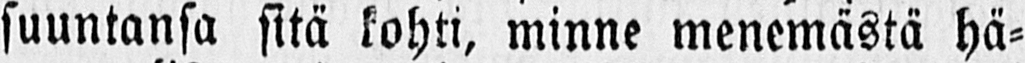suuntansa sitä kohti, minne menemästä hä-
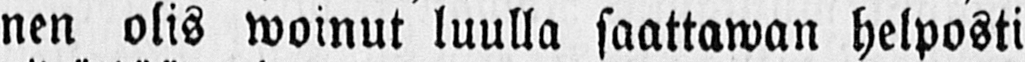nen olis woinut luulla saattawan helposti
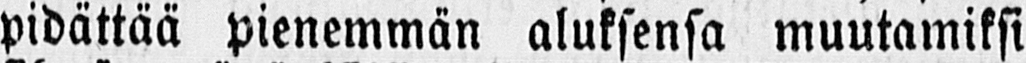pidättää pienemmän aluksensa muutamiksi
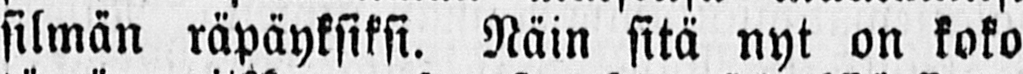silmän räpäyksiksi. Näin sitä nyt on koko
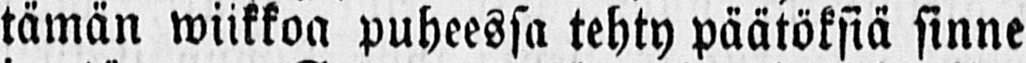tämän wiikkoa puheessa tehty päätöksiä sinne
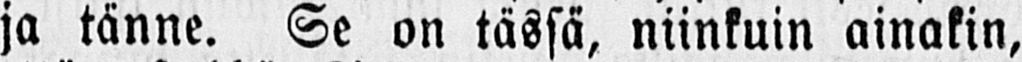ja tänne. Se on tässä, niinkuin ainakin,
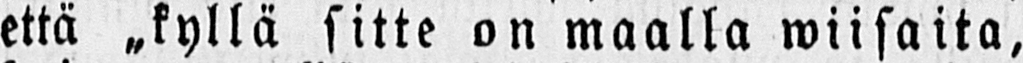että „kyllä sitte on maalla wiisaita,
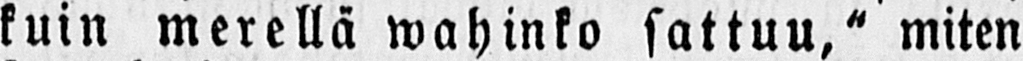kuin merellä wahinko sattuu," miten
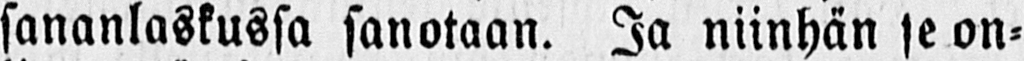sananlaskussa sanotaan. Ja niinhän se on-
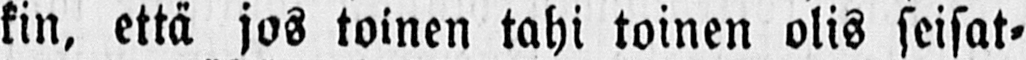kin, että jos toinen tahi toinen olis seisat-
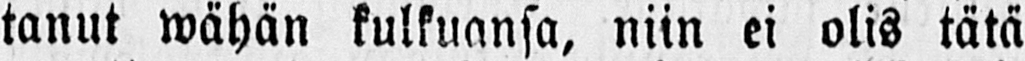tanut wähän kulkuansa, niin ei olis tätä
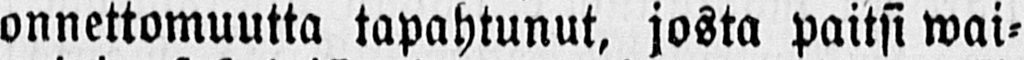onnettomuutta tapahtunut, josta paitsi wai-
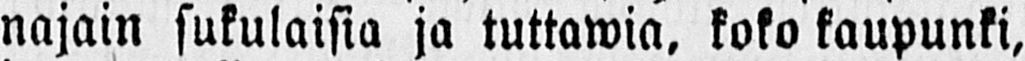najain sukulaisia ja tuttawia, koko kaupunki,
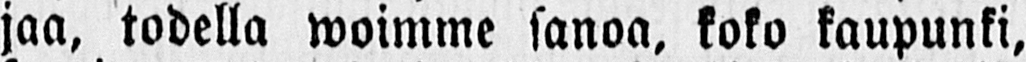jaa, todella woimme sanoa, koko kaupunki,
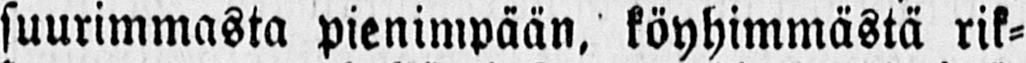suurimmasta pienimpään, köyhimmästä rik-
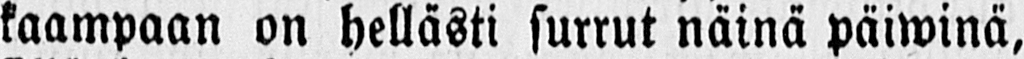kaampaan on hellästi surrut näinä päiwinä,
